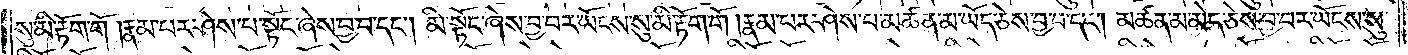སུ་མི་རྟོག་གོ །རྣམ་པར་ཤེས་པ་སྟོང་ཞེས་བྱ་བ་དང༌། མི་སྟོང་ཞེས་བྱ་བར་ཡོངས་སུ་མི་རྟོག་གོ །རྣམ་པར་ཤེས་པ་མཚན་མ་ཡོད་ཅེས་བྱ་བ་དང༌། མཚན་མ་མེད་ཅེས་བྱ་བར་ཡོངས་སུ་
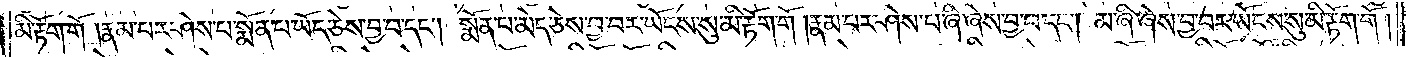མི་རྟོག་གོ །རྣམ་པར་ཤེས་པ་སྨོན་པ་ཡོད་ཅེས་བྱ་བ་དང༌། སྨོན་པ་མེད་ཅེས་བྱ་བར་ཡོངས་སུ་མི་རྟོག་གོ །རྣམ་པར་ཤེས་པ་ཞི་ཞེས་བྱ་བ་དང༌། མ་ཞི་ཞེས་བྱ་བར་ཡོངས་སུ་མི་རྟོག་གོ །
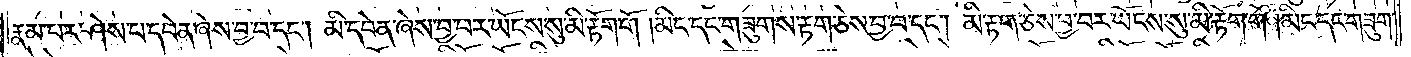རྣམ་པར་ཤེས་པ་དབེན་ཞེས་བྱ་བ་དང༌། མི་དབེན་ཞེས་བྱ་བར་ཡོངས་སུ་མི་རྟོག་གོ །མིང་དང་གཟུགས་རྟག་ཅེས་བྱ་བ་དང༌། མི་རྟག་ཅེས་བྱ་བར་ཡོངས་སུ་མི་རྟོག་གོ །མིང་དང་གཟུགས་
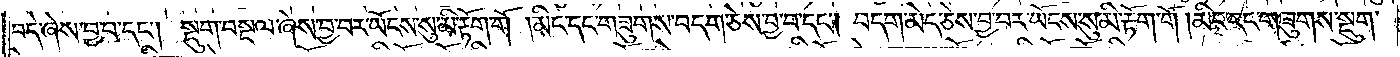བདེ་ཞེས་བྱ་བ་དང༌། སྡུག་བསྔལ་ཞེས་བྱ་བར་ཡོངས་སུ་མི་རྟོག་གོ །མིང་དང་གཟུགས་བདག་ཅེས་བྱ་བ་དང༌། བདག་མེད་ཅེས་བྱ་བར་ཡོངས་སུ་མི་རྟོག་གོ །མིང་དང་གཟུགས་སྡུག་
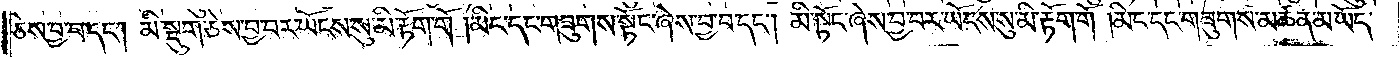ཅེས་བྱ་བ་དང༌། མི་སྡུག་ཅེས་བྱ་བར་ཡོངས་སུ་མི་རྟོག་གོ །མིང་དང་གཟུགས་སྟོང་ཞེས་བྱ་བ་དང༌། མི་སྟོང་ཞེས་བྱ་བར་ཡོངས་སུ་མི་རྟོག་གོ །མིང་དང་གཟུགས་མཚན་མ་ཡོད་
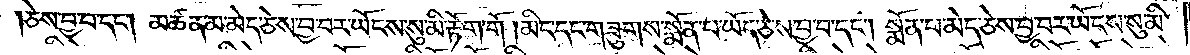ཅེས་བྱ་བ་དང༌། མཚན་མ་མེད་ཅེས་བྱ་བར་ཡོངས་སུ་མི་རྟོག་གོ །མིང་དང་གཟུགས་སྨོན་པ་ཡོད་ཅེས་བྱ་བ་དང༌། སྨོན་པ་མེད་ཅེས་བྱ་བར་ཡོངས་སུ་མི་
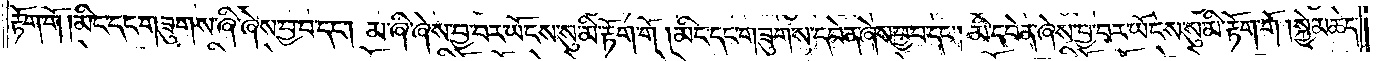རྟོག་གོ །མིང་དང་གཟུགས་ཞི་ཞེས་བྱ་བ་དང༌། མ་ཞི་ཞེས་བྱ་བར་ཡོངས་སུ་མི་རྟོག་གོ །མིང་དང་གཟུགས་དབེན་ཞེས་བྱ་བ་དང༌། མི་དབེན་ཞེས་བྱ་བར་ཡོངས་སུ་མི་རྟོག་གོ །སྐྱེ་མཆེད་
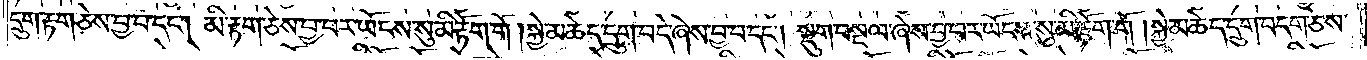དྲུག་རྟག་ཅེས་བྱ་བ་དང༌། མི་རྟག་ཅེས་བྱ་བར་ཡོངས་སུ་མི་རྟོག་གོ །སྐྱེ་མཆེད་དྲུག་བདེ་ཞེས་བྱ་བ་དང༌། སྡུག་བསྔལ་ཞེས་བྱ་བར་ཡོངས་སུ་མི་རྟོག་གོ །སྐྱེ་མཆེད་དྲུག་བདག་ཅེས་
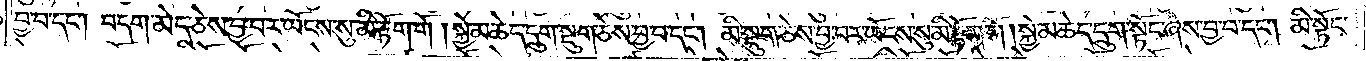བྱ་བ་དང༌། བདག་མེད་ཅེས་བྱ་བར་ཡོངས་སུ་མི་རྟོག་གོ །སྐྱེ་མཆེད་དྲུག་སྡུག་ཅེས་བྱ་བ་དང༌། མི་སྡུག་ཅེས་བྱ་བར་ཡོངས་སུ་མི་རྟོག་གོ །སྐྱེ་མཆེད་དྲུག་སྟོང་ཞེས་བྱ་བ་དང༌། མི་སྟོང་
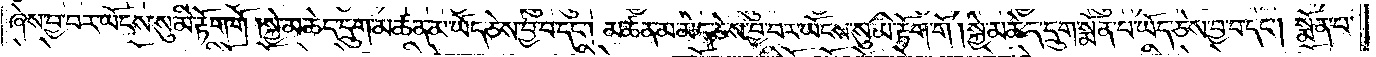ཞེས་བྱ་བར་ཡོངས་སུ་མི་རྟོག་གོ །སྐྱེ་མཆེད་དྲུག་མཚན་མ་ཡོད་ཅེས་བྱ་བ་དང༌། མཚན་མ་མེད་ཅེས་བྱ་བར་ཡོངས་སུ་མི་རྟོག་གོ །སྐྱེ་མཆེད་དྲུག་སྨོན་པ་ཡོད་ཅེས་བྱ་བ་དང༌། སྨོན་པ་
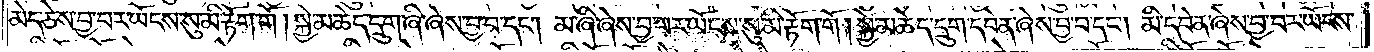མེད་ཅེས་བྱ་བར་ཡོངས་སུ་མི་རྟོག་གོ །སྐྱེ་མཆེད་དྲུག་ཞི་ཞེས་བྱ་བ་དང༌། མ་ཞི་ཞེས་བྱ་བར་ཡོངས་སུ་མི་རྟོག་གོ །སྐྱེ་མཆེད་དྲུག་དབེན་ཞེས་བྱ་བ་དང༌། མི་དབེན་ཞེས་བྱ་བར་ཡོངས་
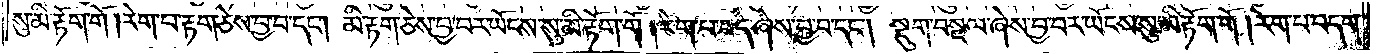སུ་མི་རྟོག་གོ །རེག་པ་རྟག་ཅེས་བྱ་བ་དང༌། མི་རྟག་ཅེས་བྱ་བར་ཡོངས་སུ་མི་རྟོག་གོ །རེག་པ་བདེ་ཞེས་བྱ་བ་དང༌། སྡུག་བསྔལ་ཞེས་བྱ་བར་ཡོངས་སུ་མི་རྟོག་གོ །རེག་པ་བདག་
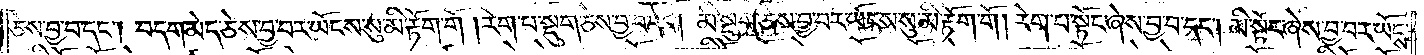ཅེས་བྱ་བ་དང༌། བདག་མེད་ཅེས་བྱ་བར་ཡོངས་སུ་མི་རྟོག་གོ །རེག་པ་སྡུག་ཅེས་བྱ་བ་དང༌། མི་སྡུག་ཅེས་བྱ་བར་ཡོངས་སུ་མི་རྟོག་གོ །རེག་པ་སྟོང་ཞེས་བྱ་བ་དང༌། མི་སྟོང་ཞེས་བྱ་བར་ཡོངས་
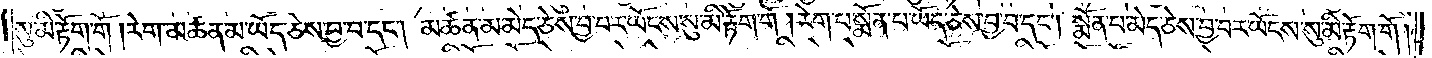སུ་མི་རྟོག་གོ །རེག་མཚན་མ་ཡོད་ཅེས་བྱ་བ་དང༌། མཚན་མ་མེད་ཅེས་བྱ་བར་ཡོངས་སུ་མི་རྟོག་གོ །རེག་པ་སྨོན་པ་ཡོད་ཅེས་བྱ་བ་དང༌། སྨོན་པ་མེད་ཅེས་བྱ་བར་ཡོངས་སུ་མི་རྟོག་གོ །
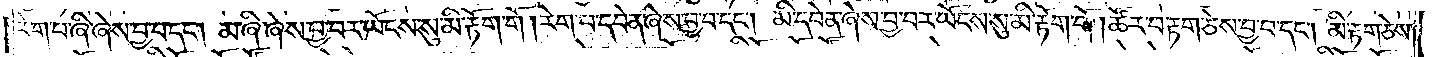རེག་པ་ཞི་ཞེས་བྱ་བ་དང༌། མ་ཞི་ཞེས་བྱ་བར་ཡོངས་སུ་མི་རྟོག་གོ །རེག་པ་དབེན་ཞེས་བྱ་བ་དང༌། མི་དབེན་ཞེས་བྱ་བར་ཡོངས་སུ་མི་རྟོག་གོ །ཚོར་བ་རྟག་ཅེས་བྱ་བ་དང༌། མི་རྟག་ཅེས་
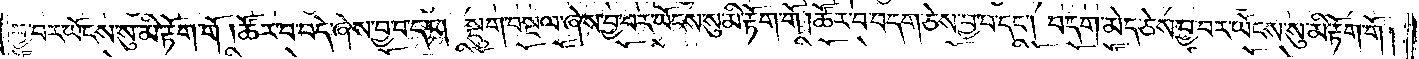བྱ་བར་ཡོངས་སུ་མི་རྟོག་གོ །ཚོར་བ་བདེ་ཞེས་བྱ་བ་དང༌། སྡུག་བསྔལ་ཞེས་བྱ་བར་ཡོངས་སུ་མི་རྟོག་གོ །ཚོར་བ་བདག་ཅེས་བྱ་བ་དང༌། བདག་མེད་ཅེས་བྱ་བར་ཡོངས་སུ་མི་རྟོག་གོ །
